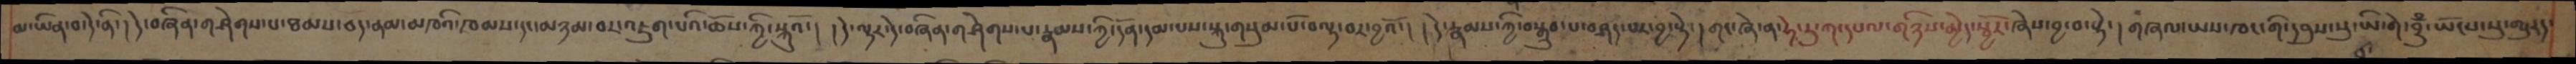མ་ཡིན་བ་དེ་ནི་། དེ་བཞིན་གཤེགས་པ་ཐམས་ཅད་ནམ་མཁའི་ཁམས་དང་མཉམ་བར་འཇུག་པའི་ཆོས་ཀྱི་སྐུའོ་། །དེ་ལྟར་དེ་བཞིན་གཤེགས་པ་རྣམས་ཀྱི་དོན་དམ་པས་སྐུ་གསུམ་པོ་བལྟ་བར་བྱའོ་། །དེ་རྣམས་ཀྱི་བསྒྲུབ་པ་བཤད་པར་བྱ་སྟེ་། གང་ཞེ་ན་ཧེ་རུ་ཀ་དཔལ་གཉིས་མྱེད་སྦྱོར་ཞེས་བྱ་བ་སྟེ་། གཞལ་ཡས་ཁང་གི་དབུས་སུ་ཡི་གེ་བྲུྃ་ཡོངས་སུ་གྱུརད་
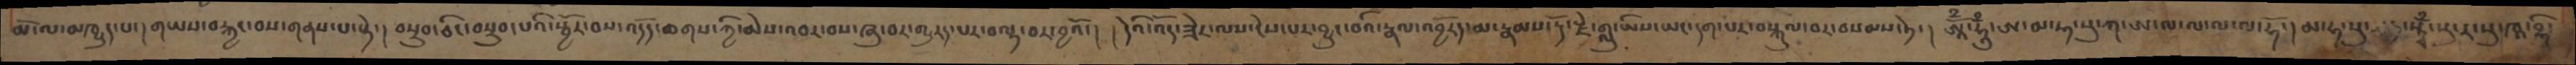མོ་ལ་མཁྱུད་པ་། །གཡས་བརྐྱང་བས་གནས་པ་སྟེ་། བསྲུབ་ཅིང་བསྲུབ་པའི་སྦྱོར་བས་འདོད་ཆགས་ཀྱི་མེས་འབར་བས་ཞུ་བར་གྱུརད་པར་བལྟ་བར་བྱའོ་། །དེའི་འོད་ཟེར་ལས་ངེས་པར་བྱུང་བའི་རྣལ་འབྱོརད་མ་རྣམས་རྡོ་རྗེ་གླུ་ཡིས་ཡང་དག་པར་བསྐུལ་བར་བསམས་ཏེ་། ཨཱོྃ་ཧཱུྃ་ཨ་མ་ཧ་སུ་ཀ་ཨ་ལ་ལ་ལ་ལ་ཧོ་།མ་ཧ་སུ་ཏྱ་སྟྭྃ་སུ་ར་སུ་ཁཱ་བྷི་
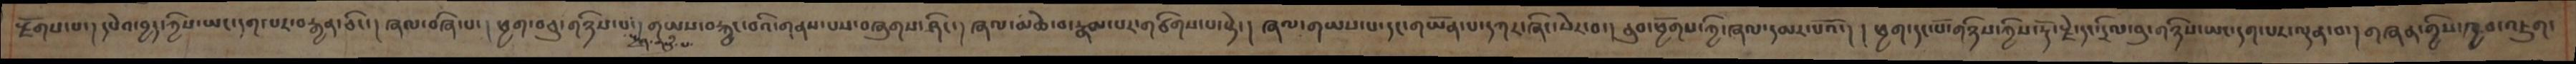རྫོགས་པ་། །དཔེའ་བྱད་ཀྱིས་ཡང་དག་པར་བརྒྱན་ཅིང་། ཞལ་བཞི་པ་། ཕྱག་བཅུ་གཉིས་པ་སྤྱན་གསུམ་པ་། གཡས་བརྐྱང་བའི་གནས་པས་བཞུགས་ཤིང་། ཞལ་མཆེ་བ་རྣམ་པར་གཙིགས་པ་སྟེ་། ཞལ་གཡས་པ་དང་གཡོན་པ་དཀར་ཞིང་སེར་བ་། ནུབ་ཕྱོགས་ཀྱི་ཞལ་དམར་པའོ་། །ཕྱག་དང་པོ་གཉིས་ཀྱིས་རྡོ་རྗེ་དང་དྲིལ་བུ་གཉིས་ཡང་དག་པར་ལྡན་བ་། གཞན་གྱིས་ཁྱབ་འཇུག་
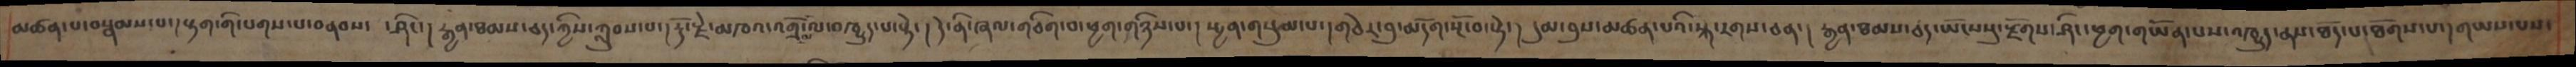མཚན་པ་བསྣམས་པ་།སྟག་གི་པགས་པ་བནབས་  ་ཤིང་། རྒྱན་ཐམས་ཅད་ཀྱིས་ཀླུབས་པ་།རྡོ་རྗེ་མཁའ་འགྲོ་མ་ལ་འཁྱུད་པ་སྟེ་། དེ་ནི་ཞལ་གཅིག་པ་ཕྱག་གཉིས་པ་། སྤྱན་གསུམ་པ་། གཅེར་བུ་མདོག་སྔོ་བ་སྟེ་། དུམ་བུས་མཚན་པའི་སྐ་རགས་ཅན་། རྒྱན་ཐམས་ཅད་ཡོངསསུ་རྫོགས་ཤིང་ཕྱག་གཡོན་པས་འཁྱུད་ནས་ཐོད་པ་ཐོགས་པ་།གཡས་པས་
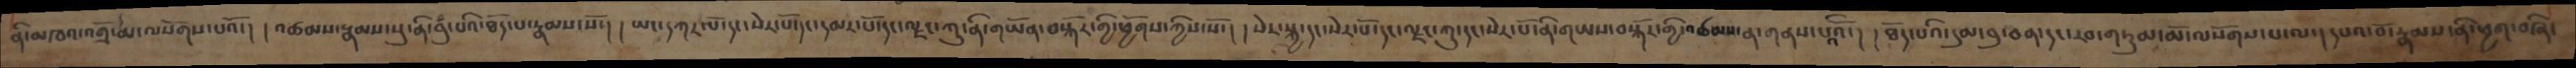ནི་མཁའ་འགྲོ་མ་ལསོགས་པའོ་། །འཚམས་རྣམས་སུ་ནི་བུྃ་པའི་ཐོད་པ་རྣམས་སོ་། །ཡང་དཀར་པོ་དང་སེར་པོ་དང་དམར་པོ་དང་ལྗང་ཀུ་ནི་གཡོན་བསྐོར་གྱི་ཕྱོགས་ཀྱིས་སོ་། །སེར་སྐྱ་དང་སེར་པོ་དང་ལྗང་ཀུ་དང་སེར་པོ་ནི་གཡས་བསྐོར་གྱི་འཚམས་ན་གནས་པའིའོ་། །ཐོད་པའི་དུམ་བུ་ཅན་དང་རབ་གཏུམ་མོ་ལསོགས་པ་ལ་། དཔའ་བོ་རྣམས་ནི་ཕྱག་བཞི་
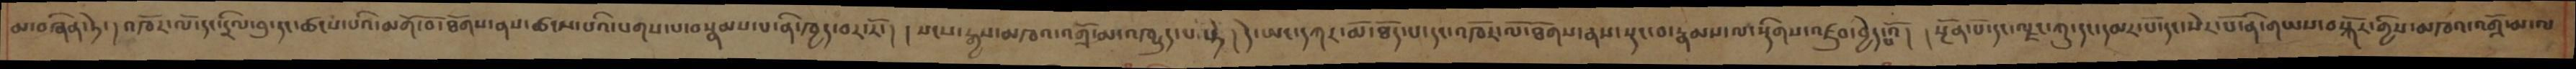མ་བཞིན་ཏེ་། འཁོར་ལོ་དང་དྲིལ་བུ་དང་ཚངས་པའི་མགོ་བོ་ཐོགས་ནས་ཚངས་པའི་པགས་པ་བསྣམས་པ་ནི་ཁྱད་བར་རོ་། །སངས་རྒྱས་མཁའ་འགྲོ་མ་འཁྱུད་པ་སྟེ། དེ་ཡང་དཀར་མོ་ཐོད་པ་དང་འཁོར་ལོ་ཐོགས་ནས་སྡང་བ་རྣམས་ལ་སྡིགས་འཛུབ་བྱེད་པའོ། །སྔོན་པོ་དང་ལྗང་ཀུ་དང་དམར་པོ་དང་སེར་པོ་ནི་གཡས་བསྐོར་གྱིས་མཁའ་འགྲོ་མ་ལ
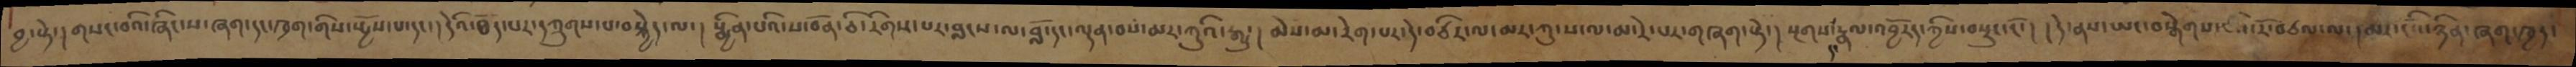བྱ་སྟེ་། གསང་བའི་ཞིང་ས་ཞག་དང་ཁྲག་གིས་སྤྱོས་པ་དང་། དེའི་ཐོད་པར་དཀྲུགས་པ་བསྐྱེད་ལ་། སྨྱིན་པའི་ས་བོན་ཅི་རིགས་པར་བླངས་ལ་བློ་དང་ལྡན་བས་མར་ཀུའི་རྒྱུ་། མེས་མ་རེག་པར་དེ་བཙིར་ལ་མར་ཀུ་ས་ལ་མ་རེ་པར་གཞག་སྟེ་། སྔགས་དང་རྣལ་འབྱོརད་ཀྱིས་བསྲུང་ངོ་། །དེ་ནས་ཡང་བསྒེགས་པའི་རོ་བཙལ་ལ་། མར་ངོའི་ཉིན་ཞག་ཁྱད་
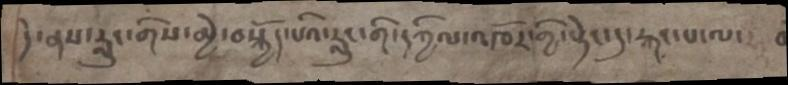དེ་ནས་རླུང་གིས་མྱེ་བསྐྱོད་པའི་རླུང་གི་དཀྱིལ་འཁོར་གྱི་སྟེང་དུ་རྐང་པ་ལ་
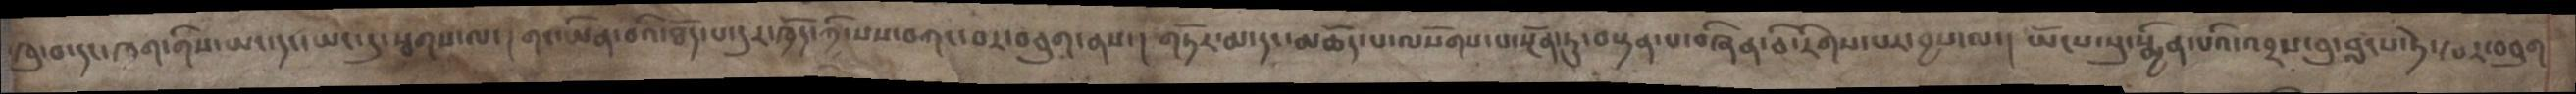ཁུ་བ་དང་ཁྲག་གིས་ཡང་དང་ཡང་དུ་སྦགས་ལ་། གང་ཡིན་བའི་ཐོད་པ་དུར་ཁྲོད་ཀྱི་སས་བཀང་བར་བཅུག་ནས་། གཏོར་མ་དང་མཆོད་པ་ལསོགས་པ་སྔོན་ཏུ་བསྟན་པ་བཞིན་ཅི་རིགས་པར་བྱས་ལ་། ཡོངས་སུ་སྨྱིན་པའི་འབྲས་བུ་བླངས་ཏེ་ཁར་བཅུག
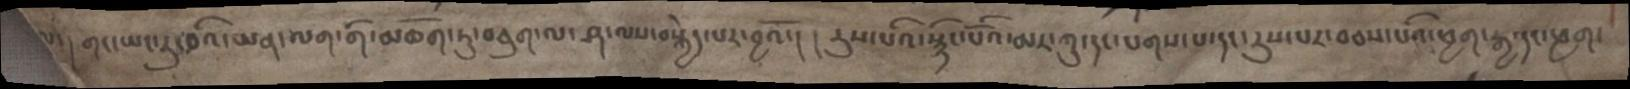ལ་། གང་ཡང་རུང་བའི་ཡན་ལག་གི་མཆོག་ཏུ་བཅུག་ལ་ཤ་ལས་བསྐྱེད་པར་བྱའོ་། །རུས་པའི་སྙིང་པོའི་མར་ཀུ་དང་པགས་པ་དང་རུས་པར་བཅས་པའི་ཕྱག་རྒྱ་དང་ཕྱག་
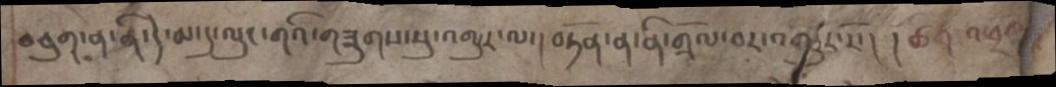བཅུག་ན་ནི་དེ་མ་དུ་ལུང་གའི་གཟུགས་སུ་འགྱུར་ལ་། བཏོན་ན་ནི་གྲོལ་བར་འགྱུར་རོ་། །ཚིག་འཕྲོག་
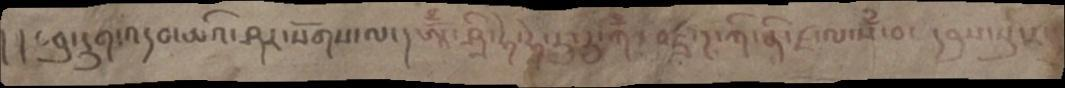།།བཅུ་དྲུག་འདབ་མའི་ཤར་སོགས་ལ་། ཨཱོྃ་ཤྲི་ཧེ་ཧེ་རུ་རུ་ཀ་བཛྲ་ཌ་ཀི་ནི་ཛ་ལ་པྃ་བ་ དབུས་སུ་རང
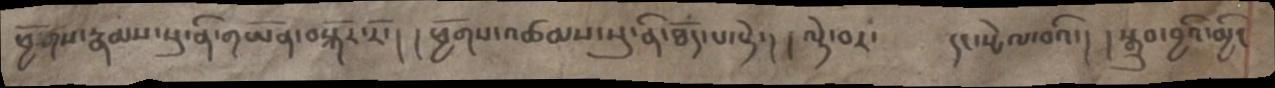ཕྱོགས་རྣམས་སུ་ནི་གཡོན་བསྐོར་རོ་། །ཕྱོགས་འཚམས་སུ་ནི་ཐོད་པ་སྟེ་། །ལྟེ་བར་  དང་སྤེལ་བའི་། །སྒྲུབ་བྱའི་མྱིང
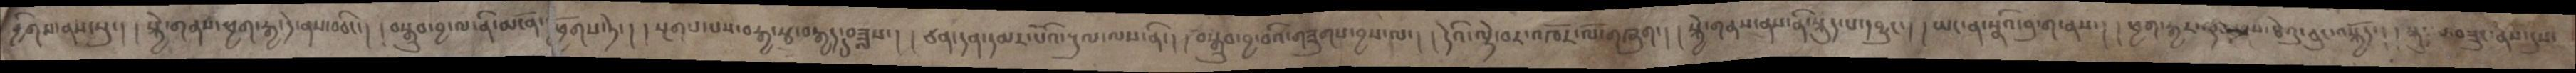བྱིགས་ནས་སུ་། །སྐྱེ་གནས་ཕྱག་རྒྱ་དེ་ནས་བཅིང་། །བསྒྲུབ་བྱ་ལ་ནི་མོངན་ཕྱོགས་ཏེ་། །སྔགས་པས་བརྒྱ་རྩ་བརྒྱད་དུ་བཟླས་། །ཙན་དན་དམར་པོའི་སྡུལ་ལས་ནི་། །བསྒྲུབ་བྱ་བའི་གཟུགས་བྱས་ལ་། །དེའི་ལྟེ་བར་འཁོར་ལོ་གཞུག་། །སྐྱེ་གནས་ནས་ནི་སྐུད་པ་དབྱུང་། །ཡང་ན་སྣའི་བུ་ག་ནས་། །ཕྱག་རྒྱར་ཞི་བས་ཐེའུ་ཅུང་བསྐྱོད་། །སྐུད་པ་བཟུང་ནས་དུས་
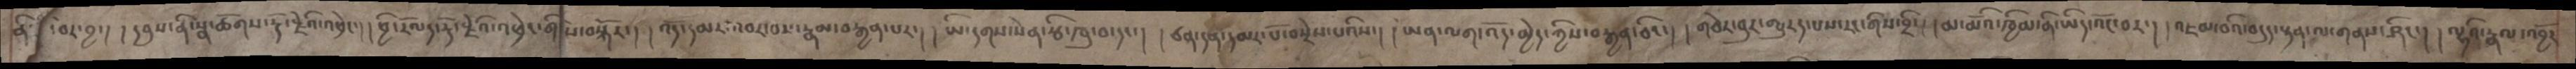ནི་བར་བྱ་། །དབུས་ནི་སྣ་ཚོགས་རྡོ་རྗེའི་འཕྲེང་། །ཕྱི་རོལད་རྡོ་རྗེའི་འཕྲེང་གིས་བསྐོར་། །འོད་དམར་འབར་བས་རྣམ་བརྒྱན་པར་། །ཡི་དགས་སེན་རྩི་ཁུ་བ་དང་། ཙན་དན་དམར་པོ་བསྲེས་པའིས་། །ཡན་ལག་འོད་མྱེད་ཀྱིས་བརྒྱན་ཅིང་། །གཅེར་བུར་གྱུརད་པས་རང་གིས་བྲི་། །མ་མོའི་ཁྱིམ་ནི་ཡིད་འོང་བར་། །འཇམ་བའི་བདུད་སྟན་ལ་གནས་ཤིང་། །ལྷའི་རྣལ་འབྱོར་
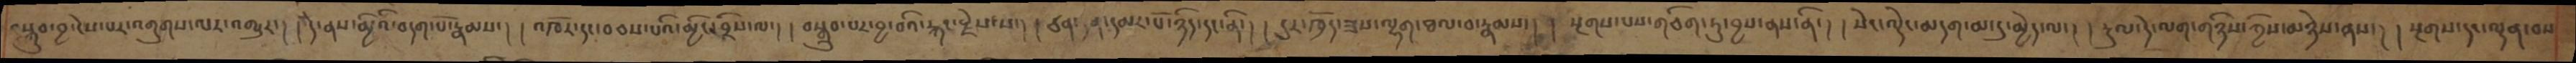བསྒྲུབ་བྱ་ངེས་པར་འགུགས་ལར་འགྱུར་། །དེ་ནས་མྱིའི་བདག་པོ་རྣམས་། །འཁོར་དང་བཅས་པའི་མྱིང་བྲིས་ལ་། །བསྒྲུབ་པར་བྱ་བའི་རྐང་རྗེས་ས་། །ཙན་དན་དམར་པོ་ཉིད་དང་ནི་། །དུར་ཁྲོད་ཟས་ལྷག་ཐལ་བ་རྣམས་། ། སྔགས་པས་གཅིག་ཏུ་བྱས་ནས་ནི་། །སེང་ལྡེང་མདག་མ་དུ་མྱེད་ལ་། ། རྡུལ་དེ་ལག་གཉིས་ཀྱིས་མཉེས་ནས་། །སྔགས་དང་ལྡན་བས
